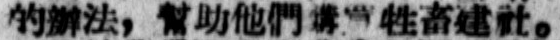的辦法，幫助他們購買牲畜建社。
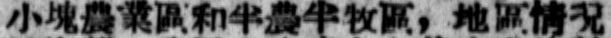小塊農業區和半農半牧區，地區情況
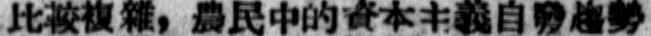比較複雜，農民中的資本主義自發趨勢
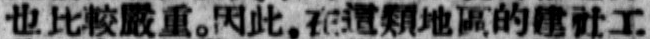也比較嚴重。因此，在這類地區的建社工
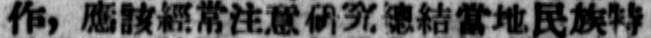作，應該經常注意研究連結當地民族特
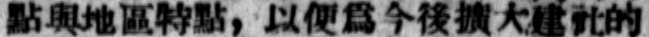點與地區特點，以便爲今後擴大建社的
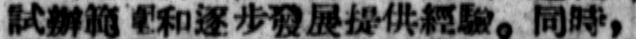試辦範圍和逐步發展提供經驗。同時，
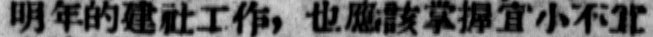明年的建社工作，也應該掌握宜小不宜
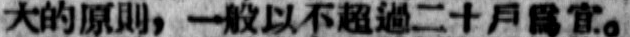大的原則，一般以不超過二十戶爲宜。
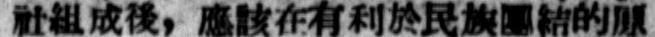社組成後，應該在有利於民族團結的原
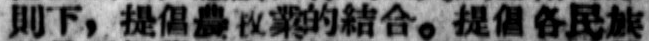則下，提倡農牧業的結合。提倡各民族
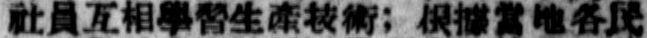社員互相學習生產技術；根據當地各民
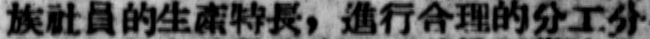族社員的生產特長，進行合理的分工分
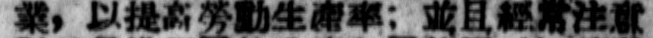業，以提高勞動生產率；並且經常注意
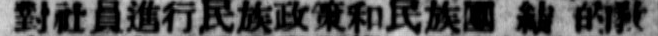對社員進行民族政策和民族團 結 的敎
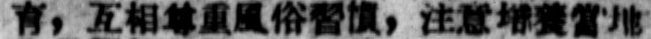育，互相尊重風俗習慣，注意培養當地
